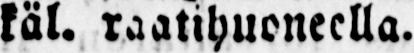käl. raatihuoneella.
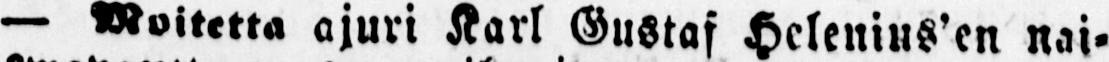— moitetta ajuri Karl Gustaf Helenius'en nai-
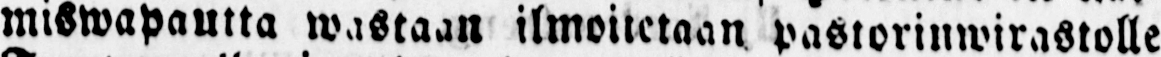miswapautta wastaan ilmoitetaan pastorinwirastolle
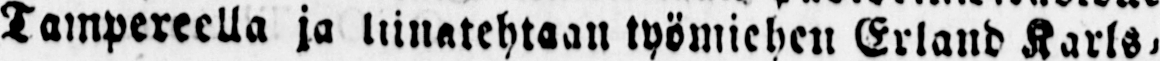Tampereella ja liinatehtaan työmiehen Erland Karls-
